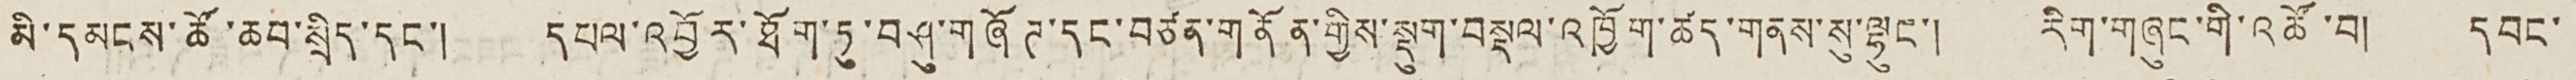མི་དམངས་ཚོ་ཆབ་སྲིད་དང་། དཔལ་འབྱོར་ཐོག་ཏུ་བཤུ་གཞོཊ་དང་བཙན་གནོན་གྱིས་སྡུག་བསྡུལ་འཁྱོག་ཚད་གནས་སུ་ལྷུང་། རིག་གཞུང་གི་འཚོ་བ། དབང་
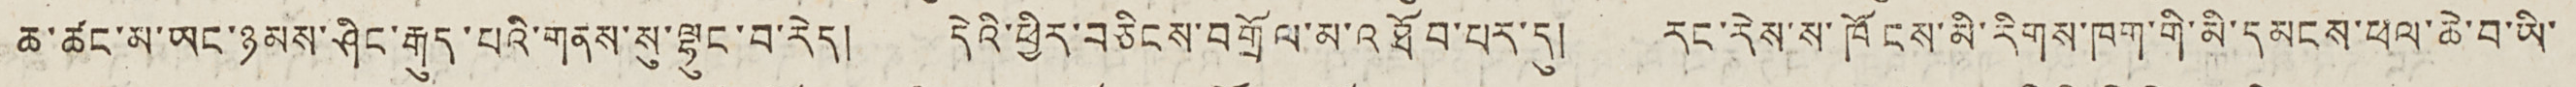ཆ་ཚང་མ་ཡང་ཉམས་ཤིང་རྒུད་པའི་གནས་སུ་ལྷུང་བ་རེད། དེའི་ཕྱིར་བཅིངས་བགྲོལ་མ་འཐོབ་བར་དུ། རང་རེས་ས་ཁོངས་མི་རིགས་ཁག་གི་མི་དམངས་ཕལ་ཆེ་བ་ཡི་
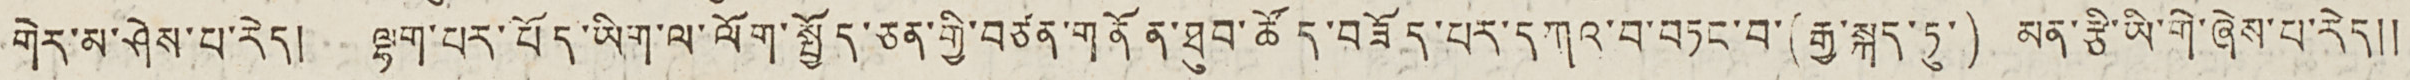གེར་མ་ཤེས་པ་རེད། ལྷག་པར་བོད་ཡིག་ལ་ལོག་སྤྱོད་ཅན་གྱི་བཙན་གནོན་ཐུབ་ཚོད་བཟོད་པར་དཀའ་བ་བཏང་བ་(རྒྱ་སྐད་ཏུ་) མན་རྩི་ཡི་གེ་ཞེས་པ་རེད།།
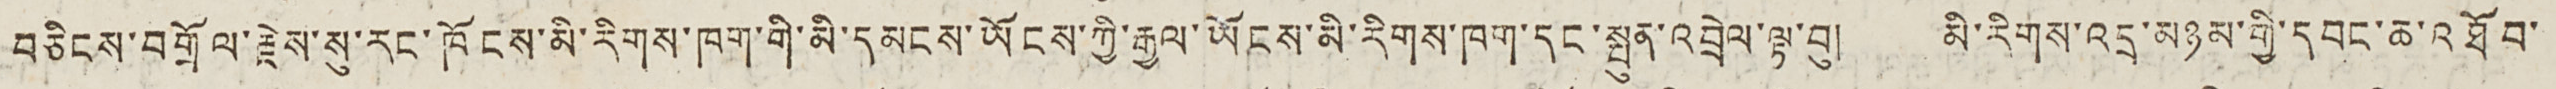བཅིངས་བགྲོལ་རྗེས་སུ་རང་ཁོངས་མི་རིགས་ཁག་གི་མི་དམངས་ཡོངས་ཀྱི་རྒྱལ་ཡོངས་མི་རིགས་ཁག་དང་སྤུན་འབྲེལ་ལྟ་བུ། མི་རིགས་འདྲ་མཉམ་གྱི་དབང་ཆ་འཐོབ་
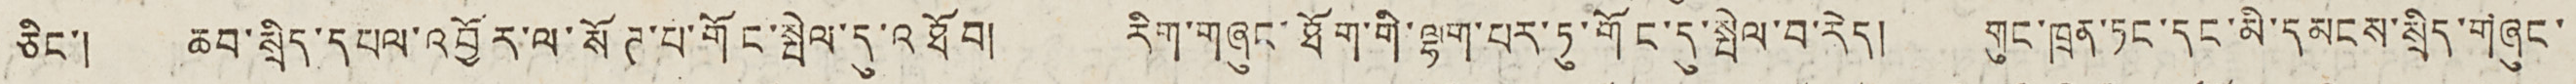ཅིང་། ཆབ་སྲིད་དཔལ་འབྱོར་ལ་སོཊ་པ་གོང་སྤེལ་དུ་འཐོབ། རིག་གཞུང་ཐོག་གི་ལྷག་པར་ཏུ་གོང་དུ་སྤེལ་བ་རེད། གུང་ཁྲན་ཏང་དང་མི་དམངས་སྲིད་གཞུང་
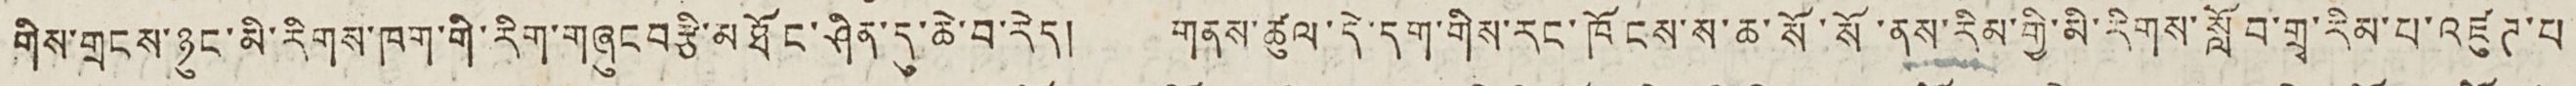གིས་གྲངས་ཉུང་མི་རིགས་ཁག་གི་རིག་གཞུང བརྩི་མཐོང་ཤིན་དུ་ཆེ་བ་རེད། གནས་ཚུལ་དེ་དག་གིས་རང་ཁོངས་ས་ཆ་སོ་སོ་ནས་རིམ་གྱི་མི་རིགས་སློབ་གྲྭ་རིམ་པ་འཛུཊ་པ་
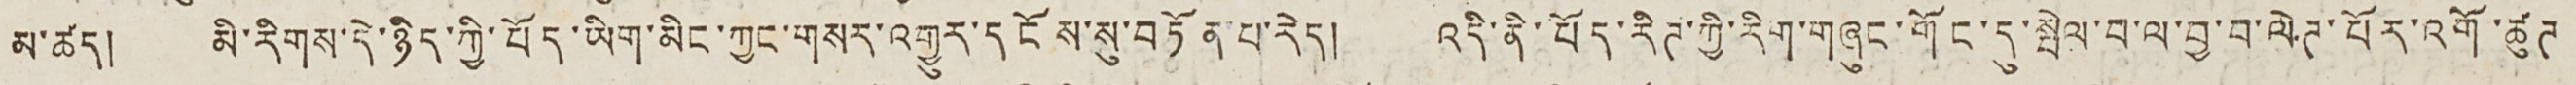མ་ཚད། མི་རིགས་དེ་ཉིད་ཀྱི་བོད་ཡིག་མིང་ཀྱང་གསར་འགྱུར་དངོས་སུ་བཏོན་པ་རེད། འདི་ནི་བོད་རིཊ་ཀྱི་རིག་གཞུང་གོང་དུ་སྤེལ་བ་ལ་བྱ་བ་ལེཊ་པོར་འགོ་ཚུཊ
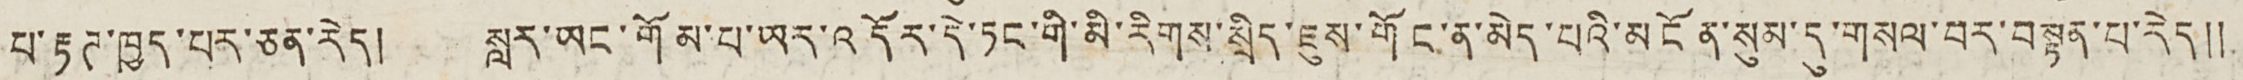པ་རྟཊ་ཁྱད་པར་ཅན་རེད། སླར་ཡང་གོམ་པ་ཡར་འདོར་དེ་ཏང་གི་མི་རིགས་སྲིད་ཇུས་གོང་ན་མེད་པའི་མངོན་སུམ་དུ་གསལ་བར་བསྟན་པ་རེད༎
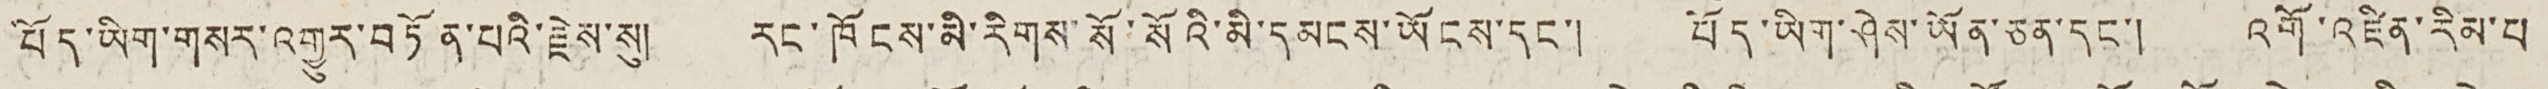བོད་ཡིག་གསར་འགྱུར་བཏོན་པའི་རྗེས་སུ། རང་ཁོངས་མི་རིགས་སོ་སོའི་མི་དམངས་ཡོངས་དང་། བོད་ཡིག་ཤེས་ཡོན་ཅན་དང་། འགོ་འཛིན་རིམ་པ
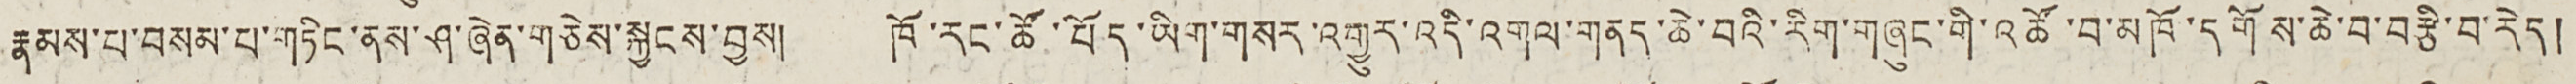རྣམས་པ་བསམ་པ་གཏིང་ནས་ཤ་ཞེན་གཅེས་སྐྱངས་བྱས། ཁོ་རང་ཚོ་བོད་ཡིག་གསར་འགྱུར་འདི་འགལ་གནད་ཆེ་བའི་རིག་གཞུང་གི་འཚོ་བ་མཁོ་དགོས་ཆེ་བ་བརྩི་བ་རེད།
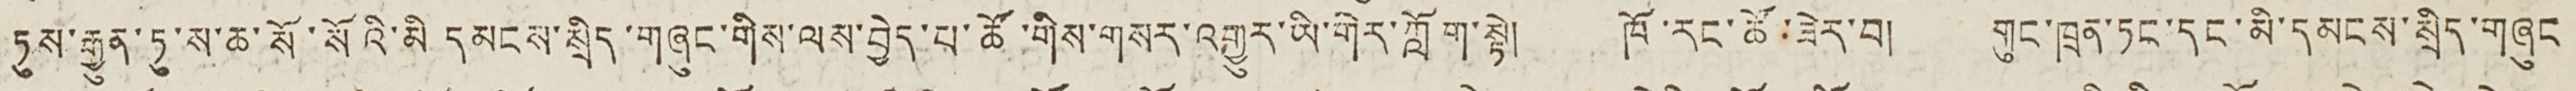ཏུས་རྒྱུན་ཏུ་ས་ཆ་སོ་སོའི་མི དམངས་སྲིད་གཞུང་གིས་ལས་བྱེད་པ་ཚོ་གིས་གསར་འགྱུར་ཡི་གེར་ཀློག་སྟེ། ཁོ་རང་ཚོ་ཟེར་བ། གུང་ཁྲན་ཏང་དང་མི་དམངས་སྲིད་གཞུང
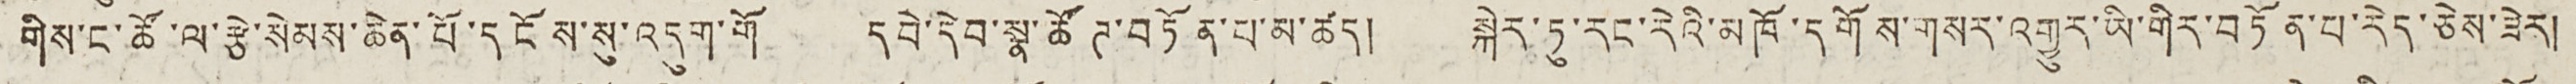གིས་ང་ཚོ་ལ་རྩེ་སེམས་ཆེན་པོ་དངོས་སུ་འདུག་གོ དབེ་དེབ་སྣ་ཚོཊ་བཏོན་པ་མ་ཚད། སྐེར་ཏུ་རང་རེའི་མཁོ་དགོས་གསར་འགྱུར་ཡི་གིར་བཏོན་པ་རེད་ཅེས་ཟེར།
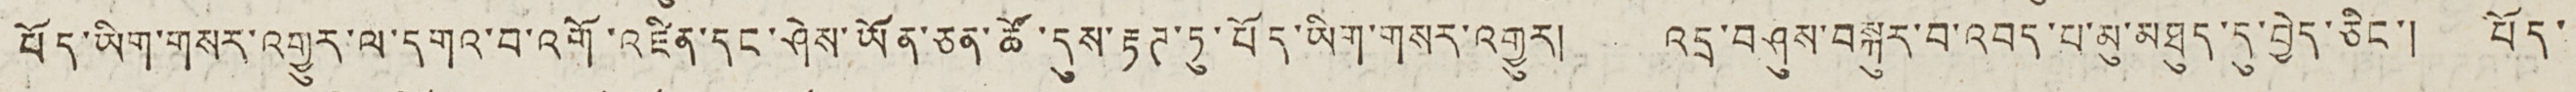བོད་ཡིག་གསར་འགྱུར་ལ་དགའ་བ་འགོ་འཛིན་དང་ཤེས་ཡོན་ཅན་ཚོ་དུས་རྟཊ་ཏུ་བོད་ཡིག་གསར་འགྱུར། འདྲ་བཤུས་བསྐུར་བ་འབད་པ་མུ་མཐུད་དུ་བྱེད་ཅིང་། བོད་
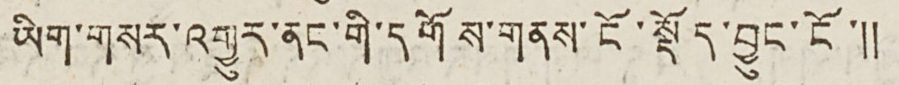ཡིག་གསར་འགྱུར་ནང་གི་དགོས་གནས་ངོ་སྡོད་བྱུང་ངོ་༎
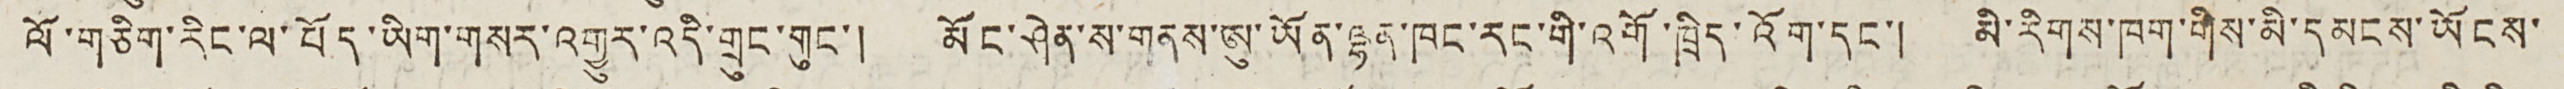ལོ་གཅིག་རིང་ལ་བོད་ཡིག་གསར་འགྱུར་འདི་གྲུང་གུང་། མོང་ཤེན་ས་གནས་ཨུ་ཡོན་ལྷན་ཁང་རང་གི་འགོ་འཁྲིད་འོག་དང་། མི་རིགས་ཁག་གིས་མི་དམངས་ཡོངས་
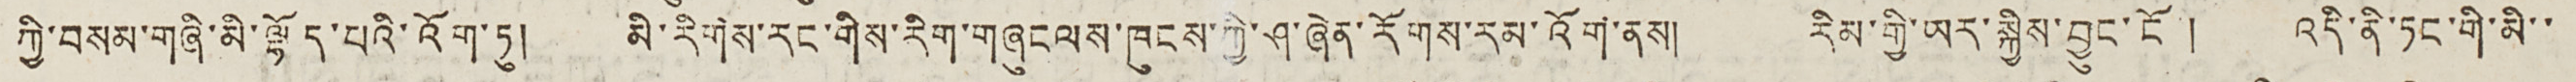གྱི་བསམ་གཞི་མི་ལྷོད་པའི་འོག་ཏུ། མི་རིགས་རང་གིས་རིག་གཞུང ལས་ཁུངས་ཀྱི་ཤ་ཞེན་རོགས་རམ་འོག་ནས། རིམ་གྱི་ཡར་སྐྱིས་བྱུང་ངོ་། འདི་ནི་ཏང་གི་མི་་
